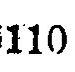110
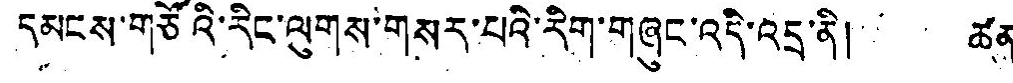དམངས་གཙོའི་རིང་ལུགས་གསར་པའི་རིག་གཞུང་འདི་འདྲ་ནི། ཚན་
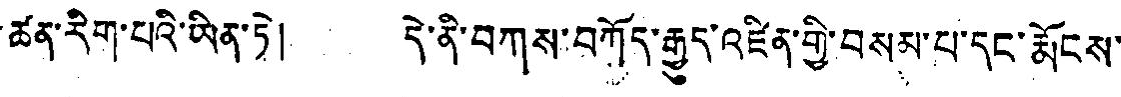ཚན་རིག་པའི་ཡིན་ཏེ། དེ་ནི་བཀས་བཀོད་རྒྱུད་འཛིན་གྱི་བསམ་པ་དང་རྨོངས་
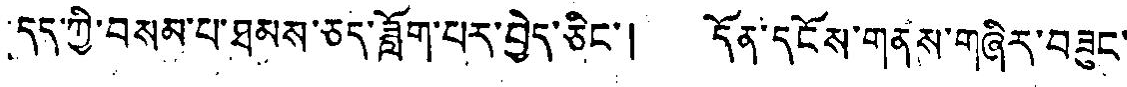དད་ཀྱི་བསམ་པ་ཐུམས་ཅད་ཟློག་པར་བྱེད་ཅིང་། དོན་དངོས་གནས་གཞིར་བཟུང་
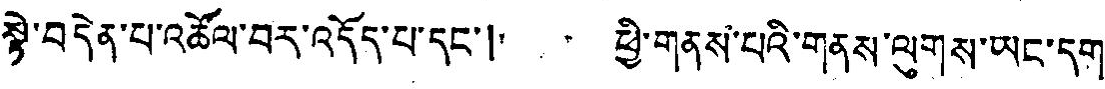སྟེ་བདེན་པ་འཚོལ་བར་འདོད་པ་དང་། ཕྱི་གནས་པའི་གནས་ལུགས་ཡང་དག
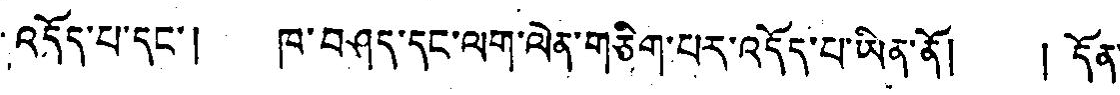འདོད་པ་དང་། ཁ་བཤད་དང་ལག་ལེན་གཅིག་པར་འདོད་པ་ཡིན་ནོ། ། དོན་
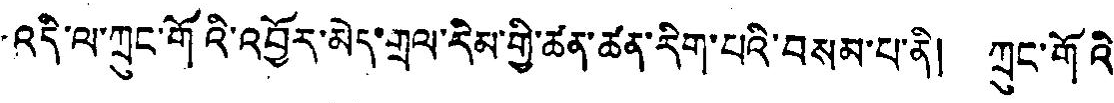འདི་ལ་ཀྲུང་གོའི་འབྱོར་མེད་གྲལ་རིམ་གྱི་ཚན་ཚན་རིག་པའི་བསམ་པ་ནི། ཀྲུང་གོའི་
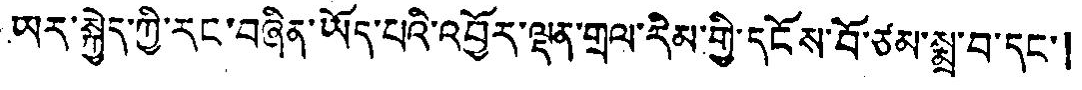ཡར་སྐྱེད་ཀྱི་རང་བཞིན་ཡོད་པའི་འབྱོར་ལྡན་གྲལ་རིམ་གྱི་དངོས་བོ་ཙམ་སྨྲ་བ་དང་།
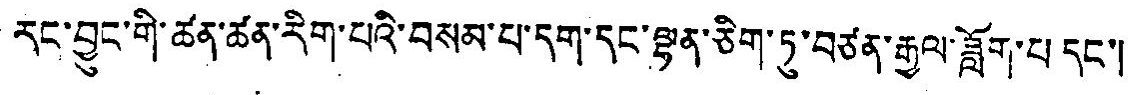རང་བྱུང་གི་ཚན་ཚན་རིག་པའི་བསམ་པ་དག་དང་ལྷན་ཅིག་ཏུ་བཙན་རྒྱལ་ཟློག་པ་དང་།
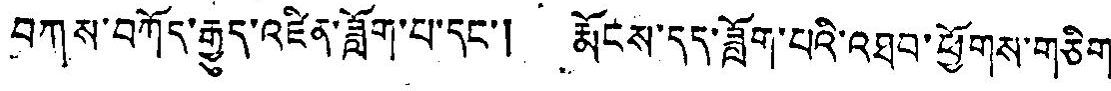བཀས་བཀོད་རྒྱུད་འཛིན་ཟློག་པ་དང་། རྨོངས་དད་ཟློག་པའི་འཐབ་ཕྱོགས་གཅིག་
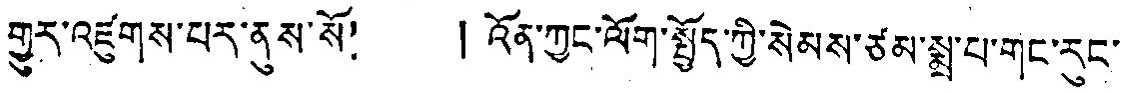གྱུར་འཛུགས་པར་ནུས་སོ། །འོན་ཀྱང་ལོག་སྤྱོད་ཀྱི་སེམས་ཙམ་སྨྲ་པ་གང་རུང་
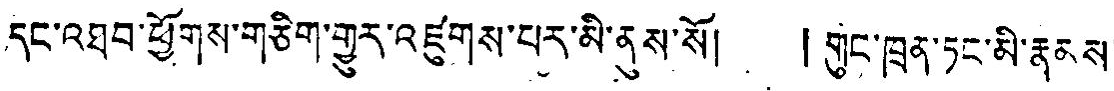དང་འཐབ་ཕྱོགས་གཅིག་གྱུར་འཛུགས་པར་མི་ནུས་སོ། །གུང་ཁྲན་ཏང་མི་རྣནས་
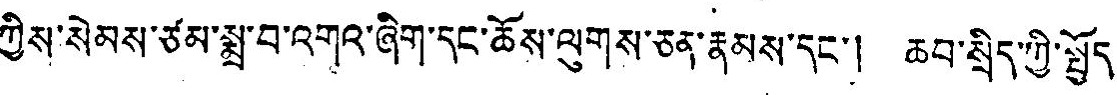ཀྱིས་སེམས་ཙམ་སྨྲ་བ་འགའ་ཞིག་དང་ཆོས་ལུགས་ཅན་རྣམས་དང་། ཆབ་སྲིད་ཀྱི་སྤྱོད་
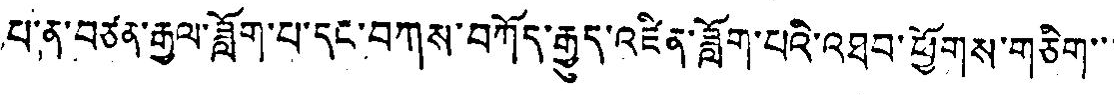པ་ན་བཙན་རྒྱལ་ཟློག་པ་དང་བཀས་བཀོད་རྒྱུད་འཛིན་ཟློག་པའི་འཐབ་ཕྱོགས་གཅིག་་་
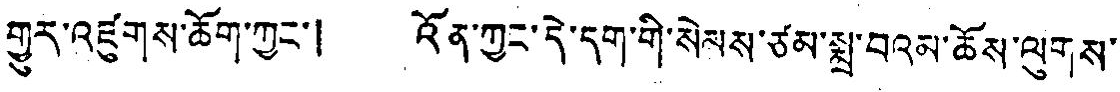གྱུར་འཛུགས་ཆོག་ཀྱང་། འོན་ཀྱང་དེ་དག་གི་སེལས་ཙམ་སྨྲ་བའམ་ཆོས་ལུགས་
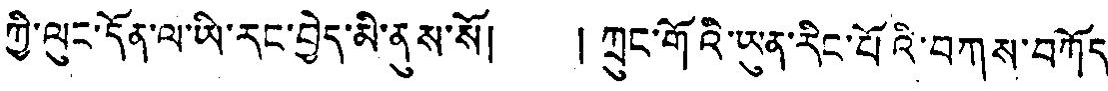ཀྱི་ལུང་དོན་ལ་ཡི་རང་བྱེད་མི་ནུས་སོ། ། ཀྲུང་གོའི་ཡུན་རིང་པོའི་བཀས་བཀོད་
